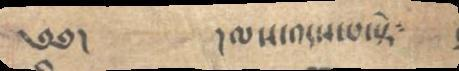༄༅།        ལས་འདས་པ་སྟེ༴
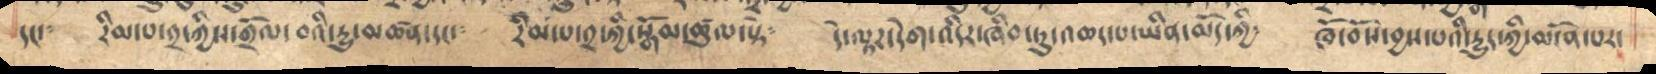དང་༴  རིམ་པ་༢་ཀྱིས་གྲོལ་བའི་རྱུ་མཚན་དང་༴  རིམ་པ་༢་ཀྱི་སྒོམ་ཚུལ་སྟེ༴  དེ་ལྟར་དེག་འདིར་ཞིབ་ཏུ་འཆད་པ་ཡིན་མོད་ཀྱི༴  ཁོ་བོས་བྱས་པའི་རྱུད་ཀྱི་མངོན་པར་
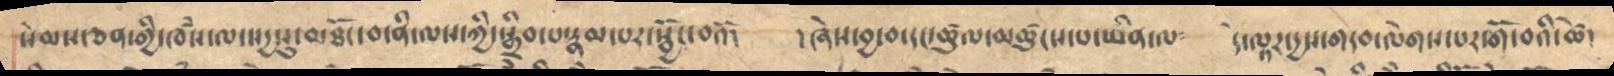སེམས་ཅན་གྱི་ཁཾས་ལ་སདྱསུ་མཐོང་བ་ནི་ལས་ཀྱི་སྒྲིབ་པ་རྣམ་པར་སྦྱོང་བའོ། །ཞེས་བྱ་བ་དང་ཚུལ་མཚུངས་པ་ཡིན་ལ༴ དེ་ལྟར་དྱས་གདབ་ལེགས་པར་གོ་བའི་ཚེ་
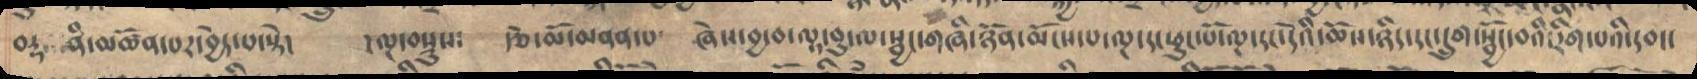བརྡ ནི་མཚོན་པར་བྱེད་པ་སྟེ། །ལྔ་བསྡུས༴ རྩེ་མོ་མནན་པ་ ཞེས་བྱ་བ་ལྟ་བུ་ལ་སྦཡང་གཞི་ཉོན་མོངས་པ་ལྔ་དང་ཕུང་པོ་ལྔ་དང་དེའི་ཆོས་ཉིད་དང་དྲུག་སྦྱོང་བའི་རིག་པའི་དབང་
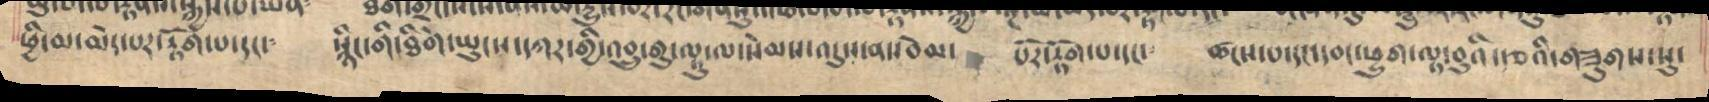ཕྱི་མ་མེད་པར་རྟོག་པ་དང་༴  སྙིང་གི་ཐིགེ་ཡུངས་དཀར་གྱི་འབྲུ་གུ་ལྟུ་ལ་སེམས་འདུས་ནསབེམ་   པོར་རྟོག་པ་དང་   ཚངས་པ་དང་དབང་ཕྱུག་ལྟ་བུའི་རྩའི་གཟུགས་སུ་
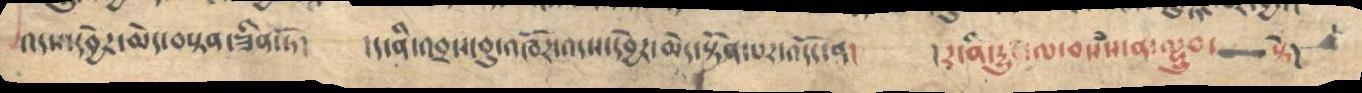འདས་དབྱེར་མེད་བསྟན་ཟིན་ཏོ། །ད་ནི་འབྲས་བུ་འཁོར་འདས་དབྱེར་མེད་སྟོན་པར་འདོད་ན། །རངིན་རྱུ ་ལ་བསཾས་ན་ལྷྲུབ་ སྟེ།
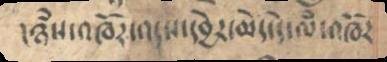།ཉཾས་འཁོར་འདས་དབྱེར་མེད་དེ་ལཾ་འཁོར
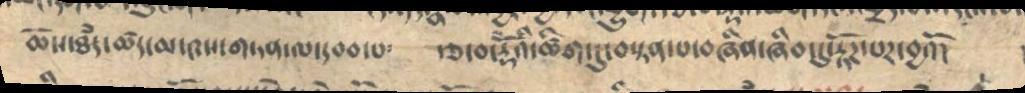ཆོས་ཐཾད་ཚད་མ་༩ས་གཏན་ལ་དབབ་པ༴ རྩ་བ་རྡོེའི་ཚིག་དུ་བསྟན་པ་བཞིན་ཞིབ་དུ་རྟོཌ་པར་བྱའོ།
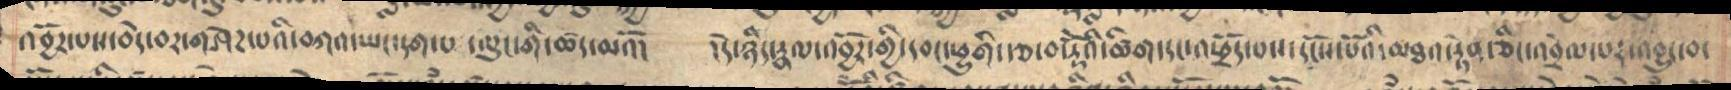འབྱོར་པས་བདེ་བར་གཤེཌ་པའི་བཀའ་ཡང་དག་པ་ལུང་གི་ཚད་མའོ། །དེ་ཉིད་རྣལ་འབྱོར་གྱི་དབང་ཕྱུགི་རྩ་བ་རྡོེའི་ཚིག་དང་འཕྲོད་པས་དངོས་པོའི་མཐའ་རྟེན་ཅིང་འབྲེལ་པར་འབྱུང་བ་
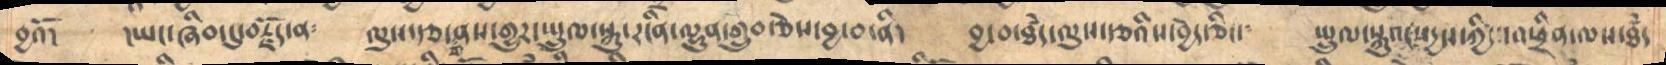བྱའོ།  །ཡང་ཞིབ་དུ་བརྗོད་ན༴   ལུས་རྩ་གནས་གྱུར་སྤྲུལ་སྐུ་རངིན་ལྷུན་གྲུབ་ཅེས་བྱ་བ་ནི།   བྱ་བ་ཐཾད་ལུས་རྩའིས་བྱེད་ཅིང་   སྤྲུལ་སྐུའ་སདྱས་ཀྱིས་འཕྲིན་ལས་ཐཾད
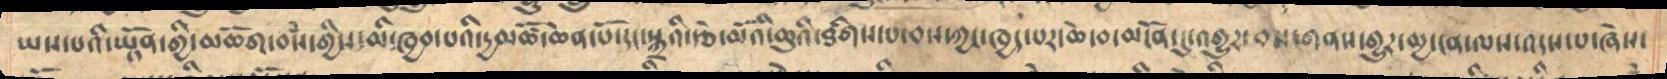ཡས་པའི་ཡྟོན་གྱི་མཆོག་བསཾ་གྱིས་མི་ཁྱབ་པའི་དྱ་མཚོ་ཆེན་པོ་དང་སྐྲའི་རྩེ་མོའི་ཆུའི་ཐིགས་པ་བས་ཀྱང་ཁྱད་པར་ཆེ་བ་མངོན་དུ་འགྱུར་བས་གནས་གྱུར་མྱ་ངན་ལས་འདས་པ་ཞེས་
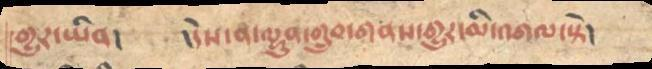གྱུར་ཡིན། །དེས་ན་ལྷུན་གྲུབ་གནས་གྱུར་མི་འགལ་སྟེ།
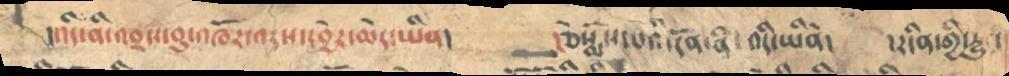།འདི་ནི་འབྲས་བུ་འཁོར་འདས་དབྱེར་མེད་ཡིན། །ཅེསྨོས་པའི་དོན་ནི་འདི་ཡིནོ། །རངིན་གྱི་རྱུ་
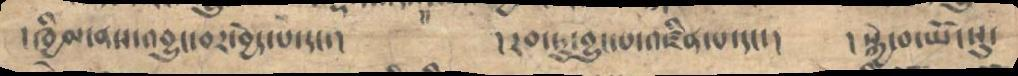།ཁྱིམ་ནས་འབྱུང་བར་བྱེད་པ་དང་། །རབ་ཏུ་བྱུང་པ་འཛིན་པ་དང་། །སྐྱེ་བ་ཡོངསུ་
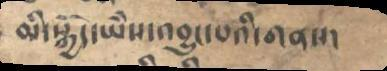མི་སྐྱོད་ཡཻས་འབྱུང་པའི་གནས།
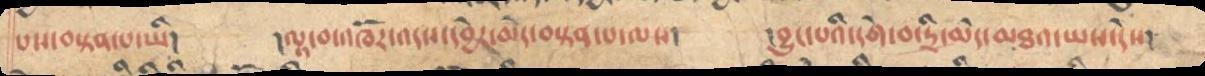པས་བསྟན་པ་ཡི། །ལྟ་བ་འཁོར་འདས་དབྱེར་མེད་བསྟན་པ་ལས། །བྱུང་པའི་དགེ་བ་དྲི་མེད་མཐའ་ཡས་དེས།
